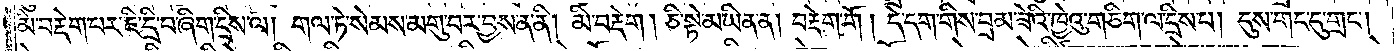མི་བརྡེག་པར་ཇི་དྲི་བ་ཞིག་དྲིས་ལ། གལ་ཏེ་སེམས་མགུ་བར་བྱས་ན་ནི། མི་བརྡེག །ཅི་སྟེ་མ་ཡིན་ན། བརྡེག་གོ །དེ་དག་གིས་བྲམ་ཟེའི་ཁྱེའུ་གཅིག་ལ་དྲིས་པ། དུས་གང་དུ་གྲང༌།
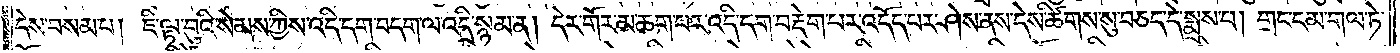དེས་བསམ་པ། ཇི་ལྟ་བུའི་སེམས་ཀྱིས་འདི་དག་བདག་ལ་འདྲི་སྙམ་ན། དེར་གོར་མ་ཆག་པར་འདི་དག་བརྡེག་པར་འདོད་པར་ཤེས་ནས་དེས་ཚིགས་སུ་བཅད་དེ་སྨྲས་པ། གྲང་ངམ་གལ་ཏེ་
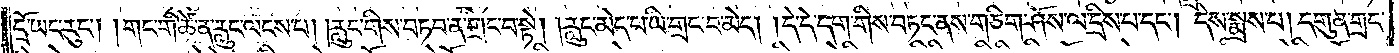དྲོ་ཡང་རུང༌། །གང་གི་ཚེ་ན་རླུང་ལངས་པ། །རླུང་གིས་བཏབ་ན་གྲང་བ་སྟེ། །རླུང་མེད་པ་ཡི་གྲང་བ་མེད། །དེ་དེ་དག་གིས་བཏང་ནས་གཅིག་ཤོས་ལ་དྲིས་པ་དང༌། དེས་སྨྲས་པ། དགུན་གྲང་
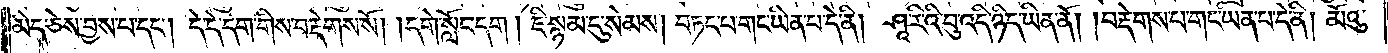མེད་ཅེས་བྱས་པ་དང༌། དེ་དེ་དག་གིས་བརྡེགས་སོ། །དགེ་སློང་དག །ཇི་སྙམ་དུ་སེམས། བཏང་པ་གང་ཡིན་པ་དེ་ནི། ཤཱ་རིའི་བུ་འདི་ཉིད་ཡིན་ནོ། །བརྡེགས་པ་གང་ཡིན་པ་དེ་ནི། མོའུ་
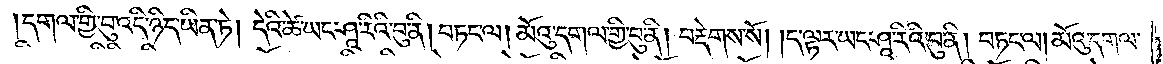།དགལ་གྱི་བུ་འདི་ཉིད་ཡིན་ཏེ། དེའི་ཚེ་ཡང་ཤཱ་རིའི་བུ་ནི། བཏང་ལ། མོའུ་དགལ་གྱི་བུ་ནི། བརྡེགས་སོ། །ད་ལྟར་ཡང་ཤཱ་རིའི་བུ་ནི། བཏང་ལ། མོའུ་དགལ་
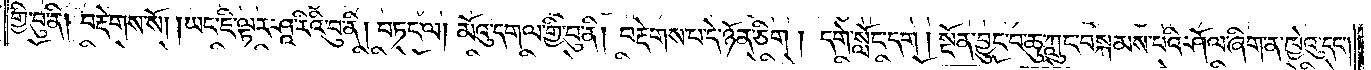གྱི་བུ་ནི། བརྡེགས་སོ། །ཡང་ཇི་ལྟར་ཤཱ་རིའི་བུ་ནི། བཏང་ལ། མོའུ་དགལ་གྱི་བུ་ནི། བརྡེགས་པ་དེ་ཉོན་ཅིག །དགེ་སློང་དག། སྔོན་བྱུང་བ་ཆུ་ཀླུང་བསྐམས་པའི་ཤོལ་ཞིག་ན་ཁྱེའུ་དང༌།
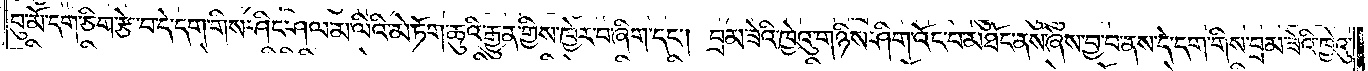བུ་མོ་དག་ཅིག་རྩེ་བ་དེ་དག་གིས་ཤིང་ཤལ་མ་ལིའི་མེ་ཏོག་ཆུའི་རྒྱུན་གྱིས་ཁྱེར་བ་ཞིག་དང༌། བྲམ་ཟེའི་ཁྱེའུ་གཉིས་ཤིག་འོང་བ་མཐོང་ནས་ཞེས་བྱ་བ་ནས་དེ་དག་གིས་བྲམ་ཟེའི་ཁྱེའུ་
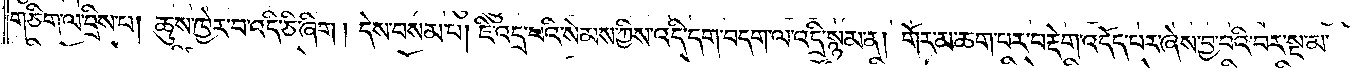གཅིག་ལ་བྲིས་པ། ཆུས་ཁྱེར་བ་འདི་ཅི་ཞིག །དེས་བསམ་པ། ཇི་འདྲ་བའི་སེམས་ཀྱིས་འདི་དག་བདག་ལ་འདྲི་སྙམ་ན། གོར་མ་ཆག་པར་བརྡེག་འདོད་པར་ཞེས་བྱ་བའི་བར་སྔ་མ་
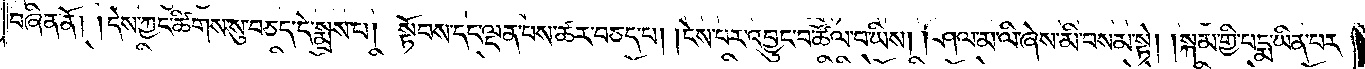བཞིན་ནོ། །དེས་ཀྱང་ཚིགས་སུ་བཅད་དེ་སྨྲས་པ། སྟོབས་དང་ལྡན་པས་ཚར་བཅད་པ། །ངེས་པར་འབྱུང་བ་ཚོལ་བ་ཡིས། །ཤལ་མ་ལི་ཞེས་མི་བསམ་སྟེ། །སྐམ་གྱི་པདྨ་ཡིན་པར་
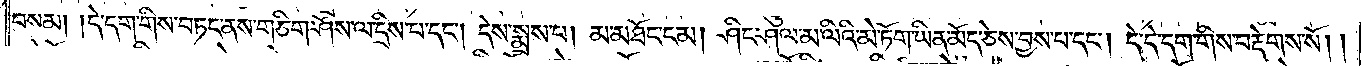བསམ། །དེ་དག་གིས་བཏང་ནས་གཅིག་ཤོས་ལ་དྲིས་པ་དང༌། དེས་སྨྲས་པ། མ་མཐོང་ངམ། ཤིང་ཤལ་མ་ལིའི་མེ་ཏོག་ཡིན་མོད་ཅེས་བྱས་པ་དང༌། དེ་དེ་དག་གིས་བརྡེགས་སོ། །
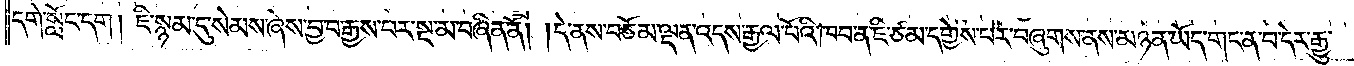དགེ་སློང་དག །ཇི་སྙམ་དུ་སེམས་ཞེས་བྱ་བ་རྒྱས་པར་སྔ་མ་བཞིན་ནོ། །དེ་ནས་བཅོམ་ལྡན་འདས་རྒྱལ་པོའི་ཁབ་ན་ཇི་ཙམ་དགྱེས་པར་བཞུགས་ནས་མཉན་ཡོད་གང་ན་བ་དེར་རྒྱུ་
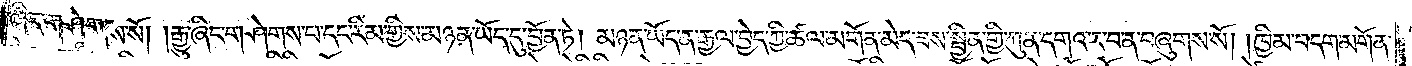ཞིང་གཤེགས་སོ། །རྒྱུ་ཞིང་གཤེགས་པ་དང་རིམ་གྱིས་མཉན་ཡོད་དུ་བྱོན་ཏེ། མཉན་ཡོད་ན་རྒྱལ་བྱེད་ཀྱི་ཚལ་མགོན་མེད་ཟས་སྦྱིན་གྱི་ཀུན་དགའ་ར་བ་ན་བཞུགས་སོ། །ཁྱིམ་བདག་མགོན་
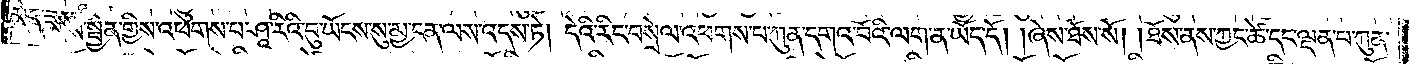མེད་ཟས་སྦྱིན་གྱིས་འཕགས་པ་ཤཱ་རིའི་བུ་ཡོངས་སུ་མྱ་ངན་ལས་འདས་ཏེ། དེའི་རིང་བསྲེལ་འཕགས་པ་ཀུན་དགའ་བོའི་ལག་ན་ཡོད་དོ། །ཞེས་ཐོས་སོ། །ཐོས་ནས་ཀྱང་ཚེ་དང་ལྡན་པ་ཀུན་
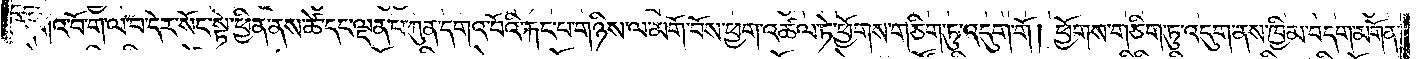དགའ་བོ་ག་ལ་བ་དེར་སོང་སྟེ་ཕྱིན་ནས་ཚེ་དང་ལྡན་པ་ཀུན་དགའ་བོའི་རྐང་པ་གཉིས་ལ་མགོ་བོས་ཕྱག་འཚལ་ཏེ་ཕྱོགས་གཅིག་ཏུ་འདུག་གོ། ཕྱོགས་གཅིག་ཏུ་འདུག་ནས་ཁྱིམ་བདག་མགོན་
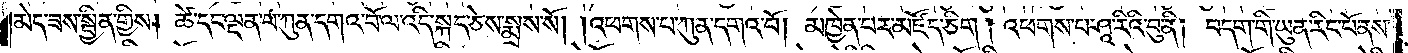མེད་ཟས་སྦྱིན་གྱིས། ཚེ་དང་ལྡན་པ་ཀུན་དགའ་བོ་ལ་འདི་སྐད་ཅེས་སྨྲས་སོ། །འཕགས་པ་ཀུན་དགའ་བོ། མཁྱེན་པར་མཛོད་ཅིག །འཕགས་པ་ཤཱ་རིའི་བུ་ནི། བདག་གི་ཡུན་རིང་པོ་ནས་
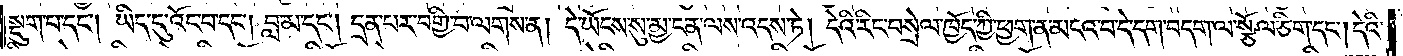སྡུག་པ་དང༌། ཡིད་དུ་འོང་བ་དང༌། བླ་མ་དང༌། དྲན་པར་བགྱི་བ་ལགས་ན། དེ་ཡོངས་སུ་མྱ་ངན་ལས་འདས་ཏེ། དེའི་རིང་བསྲེལ་ཁྱོད་ཀྱི་ཕྱག་ན་མངའ་བ་དེ་དག་བདག་ལ་སྩོལ་ཅིག་དང༌། དེའི་
